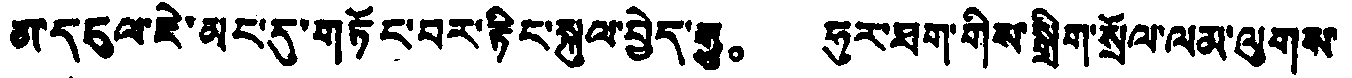མ་དངུལ་ཇེ་མང་དུ་གཏོང་བར་རྟིང་སྐུལ་བྱེད་རྒྱུ。 ཧུར་ཐག་གིས་སྒྲིག་སྲོལ་ལམ་ལུགས་
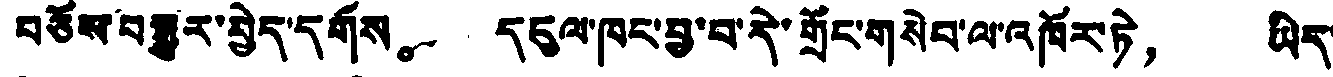བཅོས་བསྒྱུར་བྱེད་དགོས。 དངུལ་ཁང་བྱ་བ་དེ་གྲོང་གསེབ་ལ་འཁོར་ཏེ， ཡིད་
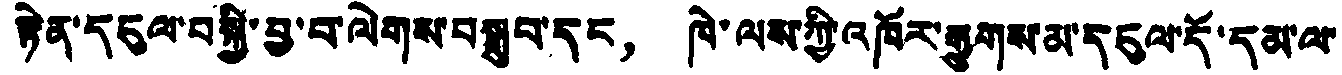ཉྟེན་དངུལ་བསྐྱི་བྱ་བ་ལེགས་བསྒྲུབ་དང， ཁེ་ལས་ཀྱི་འཁོར་རྒྱུགས་མ་དངུལ་དོ་དམ་ལ་
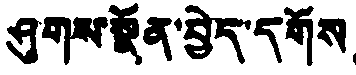ཤུགས་སྣོན་བྱེད་དགོས。
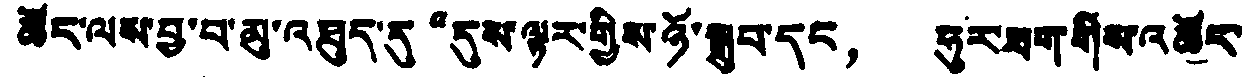ཚོང་ལས་བྱ་བ་མུ་འཐུད་དུ“དུས་ལྟར་གྱིས་ཉོ་སྒྲུབ་དང， ཧུར་ཐག་གིས་འཚོར་
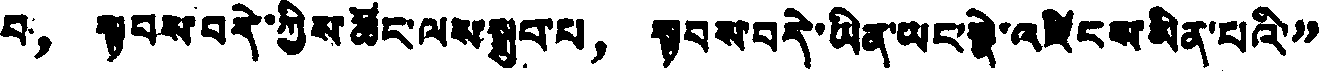བ， སྟབས་བདེ་ཀྱིས་ཚོང་ལས་སྒྲུབ་པ， སྟབས་བདེ་ཡིན་ཡང་སྣེ་འཛིངས་མིན་པའི་”
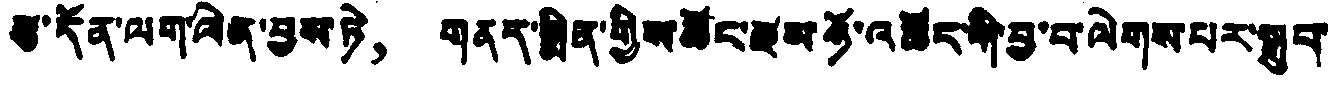རྩ་དོན་ལག་ལེན་བྱས་ཏེ， གནད་སྨིན་གྱིས་ཚོང་རྫམ་ཉོ་འཚོང་གི་བྱ་བ་ལེགས་པར་སྒྲུབ་
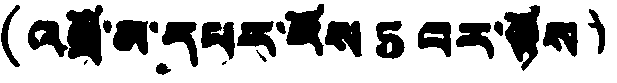(འཕྲོ་མ་དཔར་རོས 5 བར་ལྟོས)
